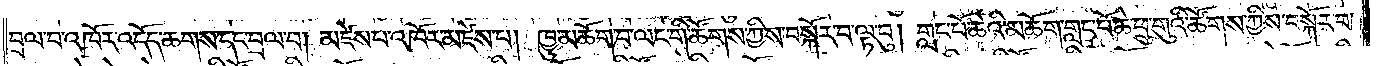བྲལ་བ་འཁོར་འདོད་ཆགས་དང་བྲལ་བ། མཛེས་པ་འཁོར་མཛེས་པ། ཁྱུ་མཆོག་བ་ལང་གི་ཚོགས་ཀྱིས་བསྐོར་བ་ལྟ་བུ། གླང་པོ་ཆེའི་མཆོག་གླང་པོ་ཆེ་ཕྲུ་གུའི་ཚོགས་ཀྱིས་བསྐོར་བ་
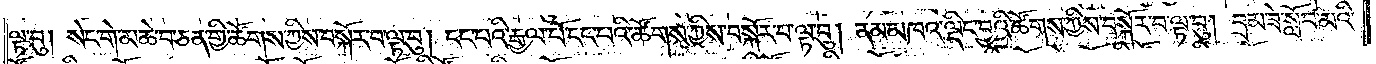ལྟ་བུ། སེང་གེ་མཆེ་བ་ཅན་གྱི་ཚོགས་ཀྱིས་བསྐོར་བ་ལྟ་བུ། ངང་པའི་རྒྱལ་པོ་ངང་པའི་ཚོགས་ཀྱིས་བསྐོར་བ་ལྟ་བུ། ནམ་མཁའ་ལྡིང་བྱའི་ཚོགས་ཀྱིས་བསྐོར་བ་ལྟ་བུ། བྲམ་ཟེ་སློབ་མའི་
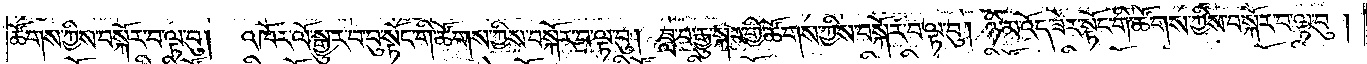ཚོགས་ཀྱིས་བསྐོར་བ་ལྟ་བུ། འཁོར་ལོ་སྒྱུར་བ་བུ་སྟོང་གི་ཚོགས་ཀྱིས་བསྐོར་བ་ལྟ་བུ། ཟླ་བ་རྒྱུ་སྐར་གྱི་ཚོགས་ཀྱིས་བསྐོར་བ་ལྟ་བུ། ཉི་མ་འོད་ཟེར་སྟོང་གི་ཚོགས་ཀྱིས་བསྐོར་བ་ལྟ་བུ།
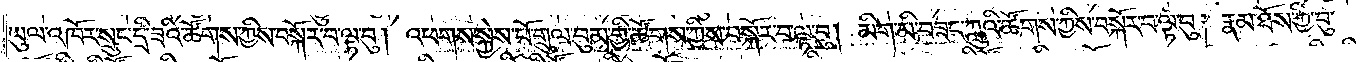ཡུལ་འཁོར་སྲུང་དྲི་ཟའི་ཚོགས་ཀྱིས་བསྐོར་བ་ལྟ་བུ། འཕགས་སྐྱེས་པོ་གྲུལ་བུམ་གྱི་ཚོགས་ཀྱིས་བསྐོར་བ་ལྟ་བུ། མིག་མི་བཟང་ཀླུའི་ཚོགས་ཀྱིས་བསྐོར་བ་ལྟ་བུ། རྣམ་ཐོས་ཀྱི་བུ་
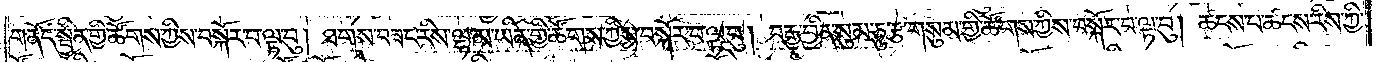གནོད་སྦྱིན་གྱི་ཚོགས་ཀྱིས་བསྐོར་བ་ལྟ་བུ། ཐགས་བཟང་རིས་ལྷ་མ་ཡིན་གྱི་ཚོགས་ཀྱིས་བསྐོར་བ་ལྟ་བུ། བརྒྱ་བྱིན་སུམ་ཅུ་རྩ་གསུམ་གྱི་ཚོགས་ཀྱིས་བསྐོར་བ་ལྟ་བུ། ཚངས་པ་ཚངས་རིས་ཀྱི་
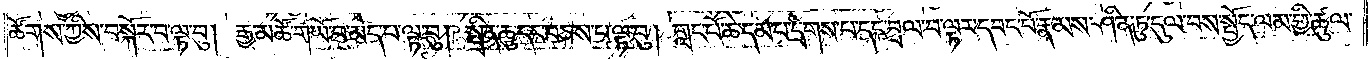ཚོགས་ཀྱིས་བསྐོར་བ་ལྟ་བུ། རྒྱ་མཚོ་གཡོ་བ་མེད་པ་ལྟ་བུ། སྤྲིན་ཆུ་དང་བཅས་པ་ལྟ་བུ། གླང་པོ་ཆེ་དམ་པ་དྲེགས་པ་དང་བྲལ་བ་ལྟར་དབང་པོ་རྣམས་ཤིན་ཏུ་དུལ་བས་སྤྱོད་ལམ་གྱི་ཚུལ་
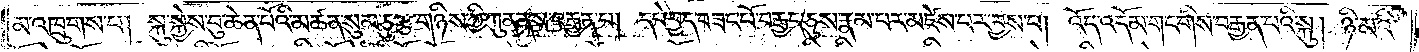མ་འཁྲུགས་པ། སྐུ་སྐྱེས་བུ་ཆེན་པོའི་མཚན་སུམ་ཅུ་རྩ་གཉིས་ཀྱི་ཀུན་ནས་བརྒྱན་པ། དཔེ་བྱད་བཟང་པོ་བརྒྱད་ཅུས་རྣམ་པར་མཛེས་པར་བྱས་པ། འོད་འདོམ་གང་གིས་བརྒྱན་པའི་སྐུ། ཉི་མའི་
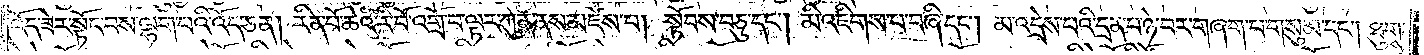འོད་ཟེར་སྟོང་བས་ལྷག་པའི་འོད་ཅན། རིན་པོ་ཆེའི་རི་བོ་འགྲོ་བ་ལྟར་ཀུན་ནས་མཛེས་པ། སྟོབས་བཅུ་དང༌། མི་འཇིགས་པ་བཞི་དང༌། མ་འདྲེས་པའི་དྲན་པ་ཉེ་བར་གཞག་པ་གསུམ་དང༌། ཐུགས་
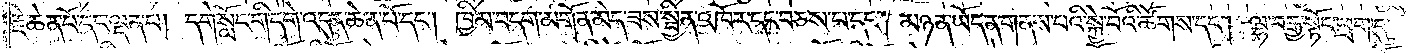རྗེ་ཆེན་པོ་དང་ལྡན་པ། དགེ་སློང་གི་དགེ་འདུན་ཆེན་པོ་དང༌། ཁྱིམ་བདག་མགོན་མེད་ཟས་སྦྱིན་འཁོར་དང་བཅས་པ་དང༌། མཉན་ཡོད་ན་གནས་པའི་སྐྱེ་བོའི་ཚོགས་དང༌། ལྷ་བརྒྱ་སྟོང་ཕྲག་དུ་
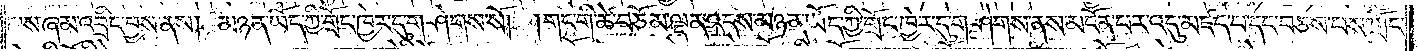མས་ཞམ་འབྲིང་བྱས་ནས། མཉན་ཡོད་ཀྱི་གྲོང་ཁྱེར་དུ་གཤེགས་སོ། །གང་གི་ཚེ་བཅོམ་ལྡན་འདས་མཉན་ཡོད་ཀྱི་གྲོང་ཁྱེར་དུ་གཤེགས་ནས་མངོན་པར་འདུ་མཛད་པ་དང་བཅས་པས་གྲོང་
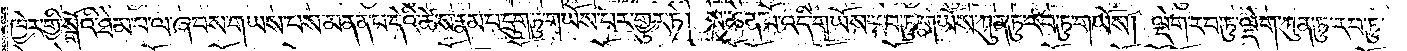ཁྱེར་གྱི་སྒོའི་ཐེམ་པ་ལ་ཞབས་གཡས་པས་མནན་པ་དེའི་ཚེ་ས་རྣམ་པ་དྲུག་ཏུ་གཡོས་པར་གྱུར་ཏེ། ས་ཆེན་པོ་འདི་གཡོས་རབ་ཏུ་གཡོས་ཀུན་ཏུ་རབ་ཏུ་གཡོས། ལྡེག་རབ་ཏུ་ལྡེག་ཀུན་ཏུ་རབ་ཏུ་
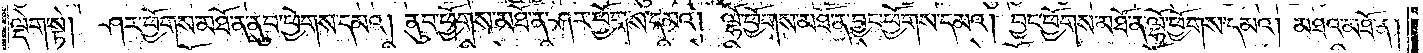ལྡེག་སྟེ། ཤར་ཕྱོགས་མཐོ་ན་ནུབ་ཕྱོགས་དམའ། ནུབ་ཕྱོགས་མཐོ་ན་ཤར་ཕྱོགས་དམའ། ལྷོ་ཕྱོགས་མཐོ་ན་བྱང་ཕྱོགས་དམའ། བྱང་ཕྱོགས་མཐོ་ན་ལྷོ་ཕྱོགས་དམའ། མཐའ་མཐོ་ན།
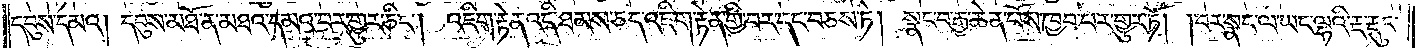དབུས་དམའ། དབུས་མཐོ་ན་མཐའ་དམའ་བར་གྱུར་ཅིང༌། འཇིག་རྟེན་འདི་ཐམས་ཅད་འཇིག་རྟེན་གྱི་བར་དང་བཅས་ཏེ། སྣང་བ་རྒྱ་ཆེན་པོས་ཁྱབ་པར་གྱུར་ཏོ། །བར་སྣང་ལ་ཡང་ལྷའི་རྔ་རྡུང་
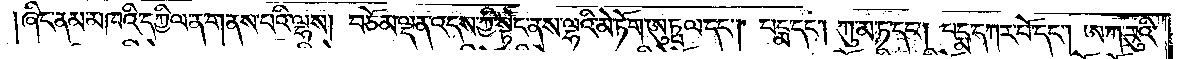ཞིང་ནམ་མཁའི་དཀྱིལ་ན་གནས་པའི་ལྷས། བཅོམ་ལྡན་འདས་ཀྱི་སྟེང་ནས་ལྷའི་མེ་ཏོག་ཨུཏྤལ་དང༌། པདྨ་དང༌། ཀུ་མ་ཏ་དང༌། པདྨ་དཀར་པོ་དང༌། ཨ་ཀ་རུའི་
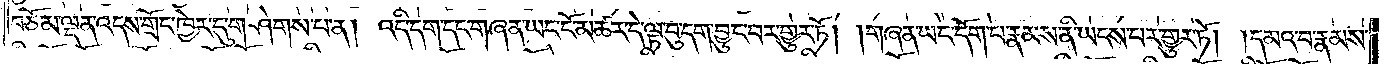བཅོམ་ལྡན་འདས་གྲོང་ཁྱེར་དུ་གཤེགས་པ་ན། འདི་དག་དང་གཞན་ཡང་ངོ་མཚར་དེ་ལྟ་བུ་དག་བྱུང་བར་གྱུར་ཏོ། །གཞན་ཡང་དོག་པ་རྣམས་ནི་ཡངས་པར་གྱུར་ཏོ། །དམའ་བ་རྣམས་
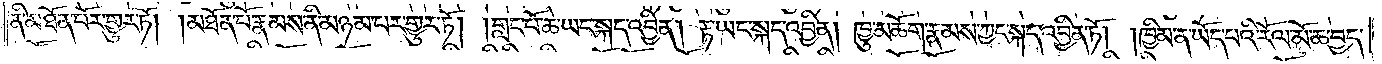ནི་མཐོན་པོར་གྱུར་ཏོ། །མཐོན་པོ་རྣམས་ནི་མཉམ་པར་གྱུར་ཏོ། །གླང་པོ་ཆེ་ཡང་སྐད་འབྱིན། རྟ་ཡང་སྐད་འབྱིན། ཁྱུ་མཆོག་རྣམས་ཀྱང་སྐད་འབྱིན་ཏོ། །ཁྱིམ་ན་ཡོད་པའི་རོལ་མོ་ཆ་བྱད་
